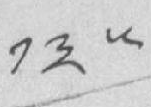༡༣༥
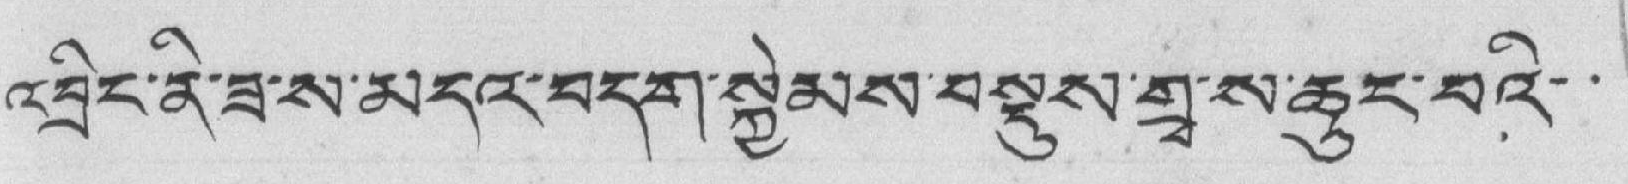འབྲིང་ནི་ཟ་ས་མདའ་བདག་སྐྱེམས་བསྡུས་གྲྭ་ས་ཆུང་བའི་
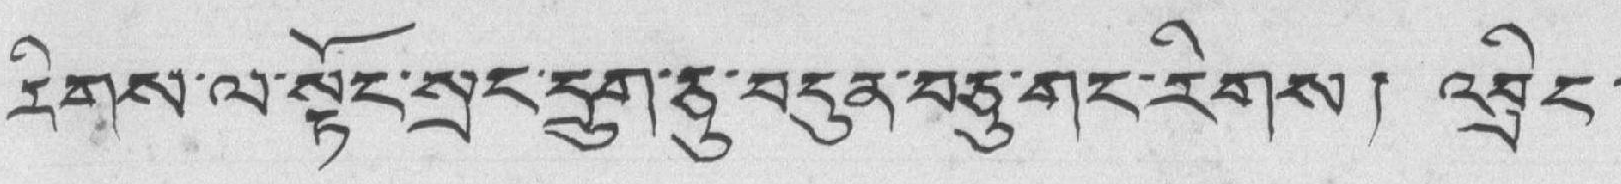རིགས་ལ་སྟོང་སྲང་དྲུག་ཅུ་བདུན་བཅུ་གང་རིགས། འབྲིང་
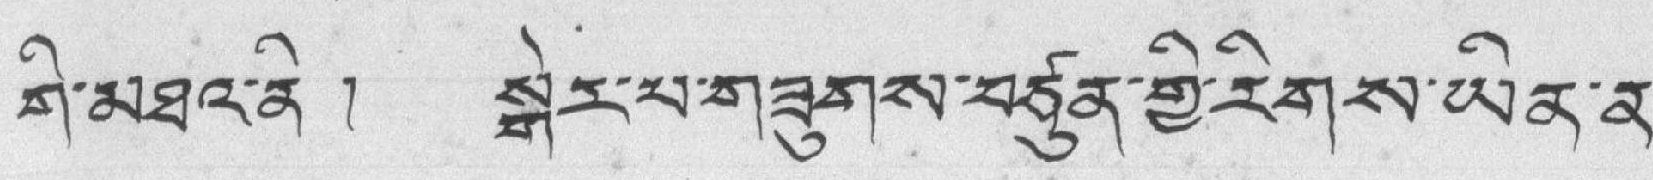གི་མཐའ་ནི ། སྒེར་པ་གཟུགས་བཙུན་གྱི་རིགས་ཡིན་ན་
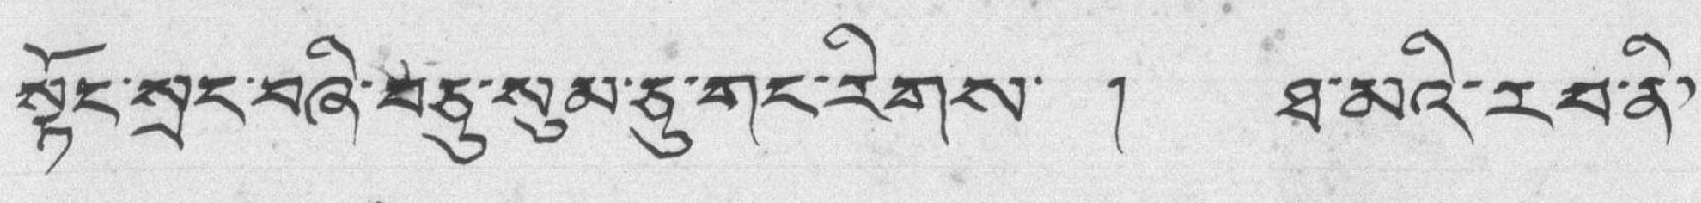སྟོང་སྲང་བཞི་བཅུ་སུམ་ཅུ་གང་རིགས་ ། ཐ་མའི་རབ་ནི་
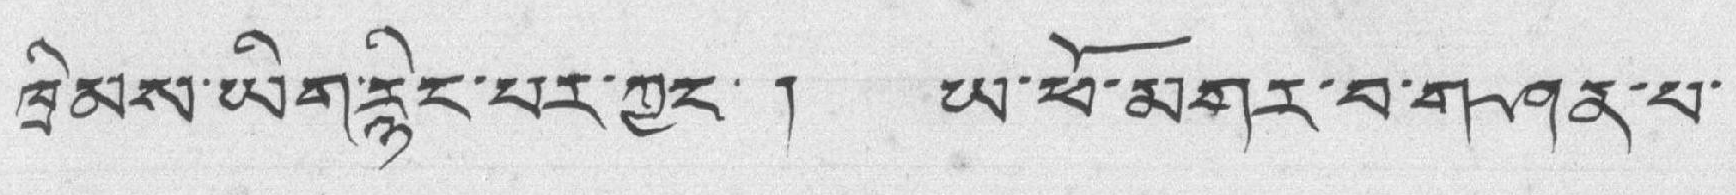ཁྲིམས་ཡིག་རྙིང་པར་ཀྱང་ ། ཡ་ཕོ་མགར་བ་གཤན་པ་
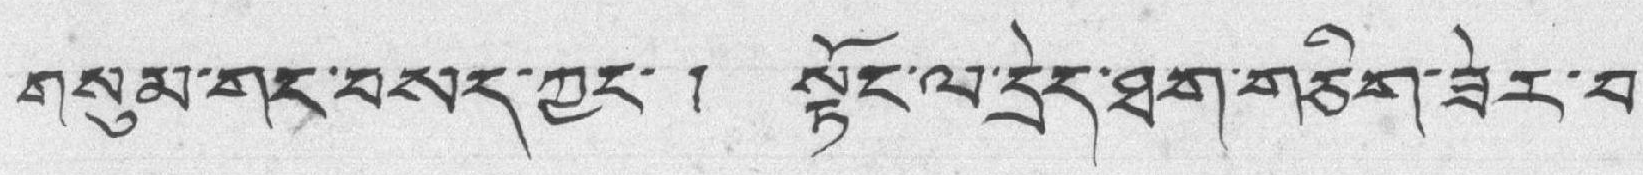གསུམ་གང་བསད་ཀྱང་ ། སྟོང་ལ་དྲེད་ཐག་གཅིག་ཟེར་བ་
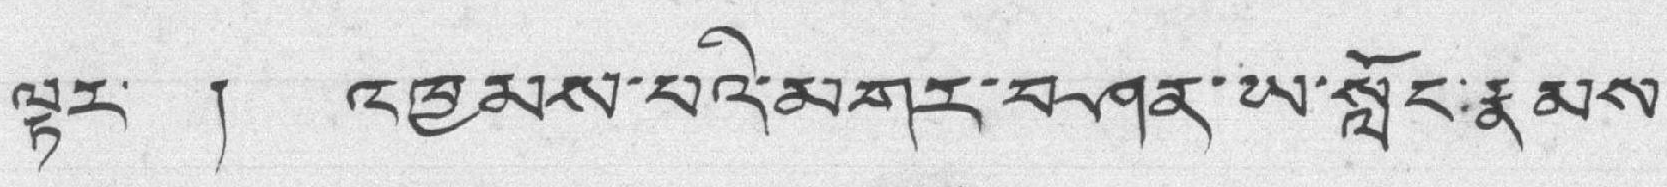ལྟར་ ། འཁྱམས་པའི་མགར་བཤན་ཡ་སློང་རྣམས་
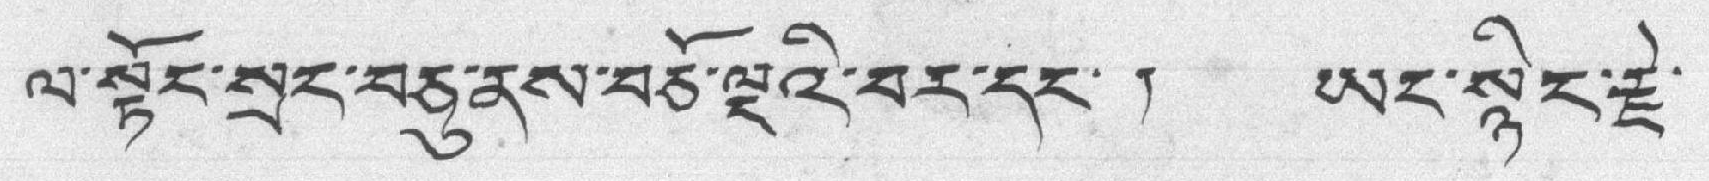ལ་སྟོང་སྲང་བཅུ་ནས་བཅོ་ལྔའི་བར་དང་། ཡང་སྙིང་རྗེ་
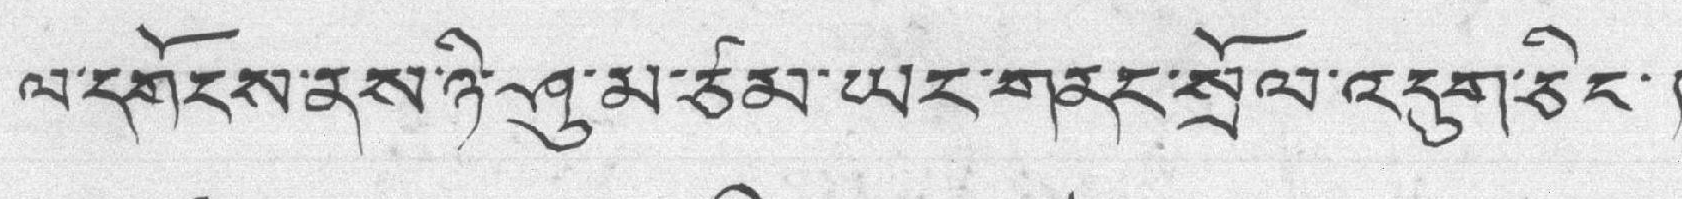ལ་དགོངས་ནས་ཉི་ཤུ་མ་ཙམ་ཡང་གནང་སྲོལ་འདུག་ཅིང་།
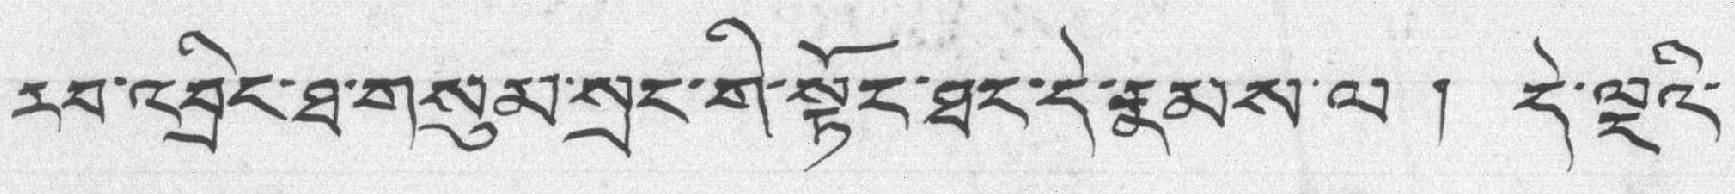རབ་འབྲིང་ཐ་གསུམ་སྲང་གི་སྟོང་ཐང་དེ་རྣམས་ལ ། དེ་ལྔའི་
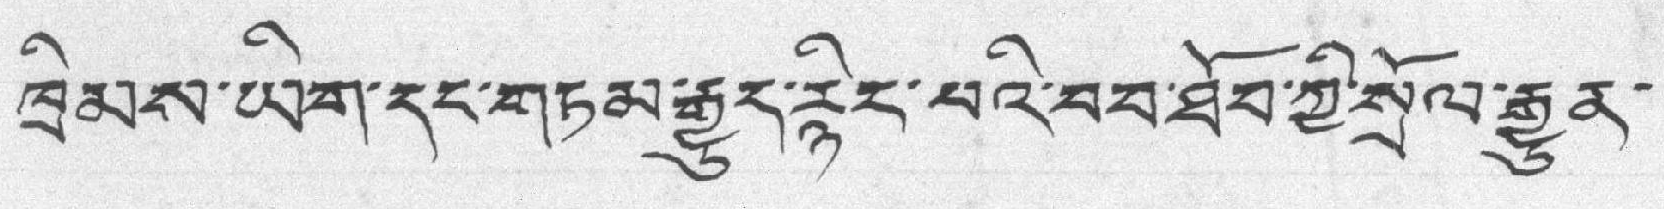ཁྲིམས་ཡིག་དང་གཏམ་རྒྱུད་རྙིང་པའི་བབ་ཐོབ་ཀྱི་སྲོལ་རྒྱུན་
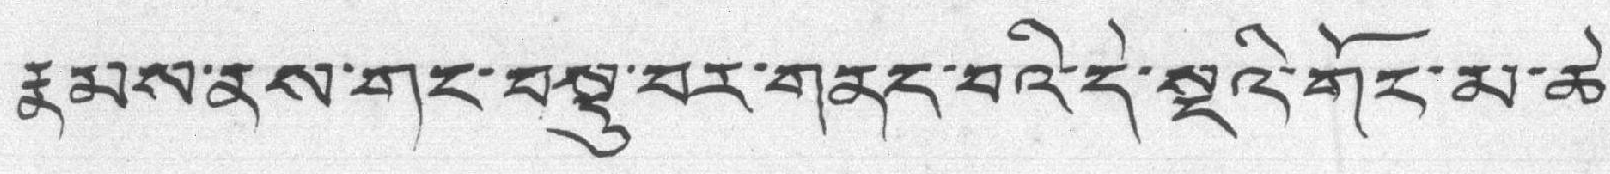རྣམས་ནས་གང་བསྡུ་བར་གནང་བའི་དེ་སྔའི་གོང་མ་ཆེ་
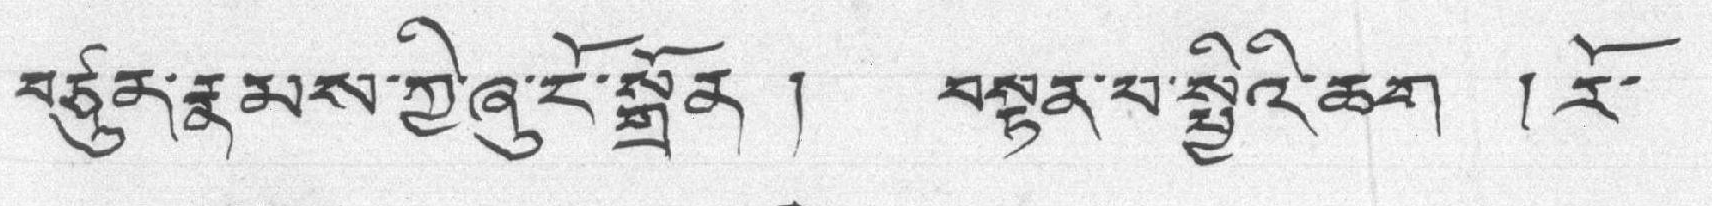བཙུན་རྣམས་ཀྱི་ཞུ་ངོ་སྒྲོན ། བསྟན་པ་སྤྱིའི་ཆག ། རོ་
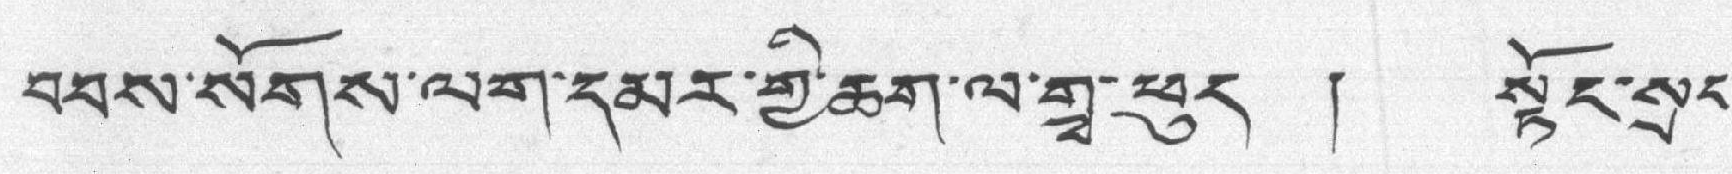བབས་སོགས་ལག་དམར་གྱི་ཆག་ལ་གྲྭ་ཕུད ། སྟོང་སྲང་
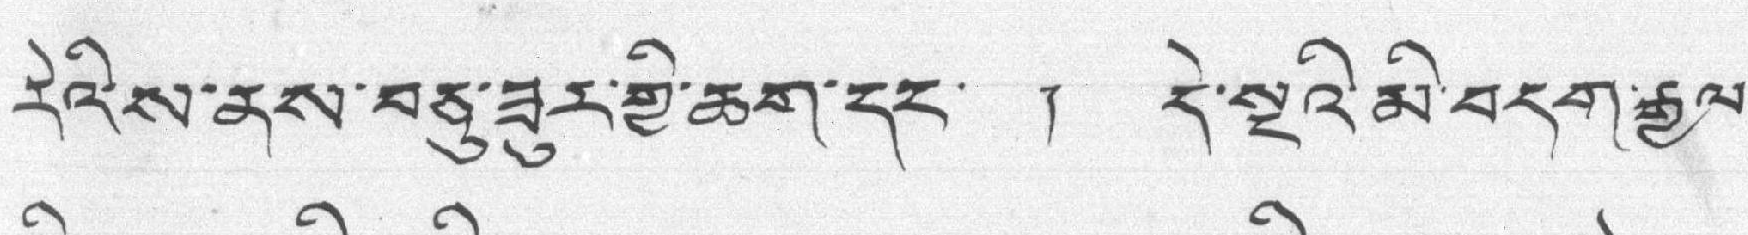རེའི་ས་ནས་བཅུ་ཟུར་གྱི་ཆག་དང་ ། དེ་སྔའི་མི་བདག་རྒྱལ་
